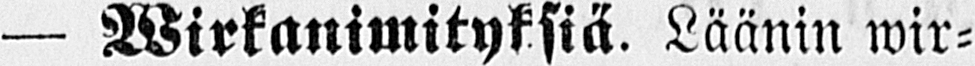— Wirkanimityksiä. Läänin wir-
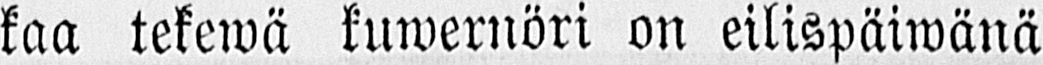kaa tekewä kuwernöri on eilispäiwänä
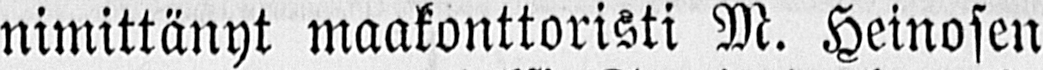nimittänyt maakonttoristi M. Heinosen
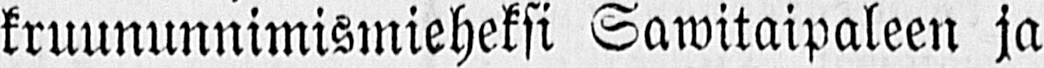kruununnimismieheksi Sawitaipaleen ja
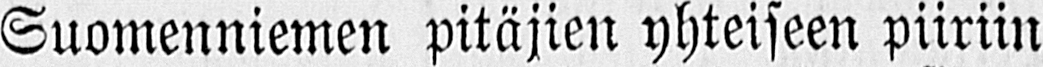Suomenniemen pitäjien yhteiseen piiriin
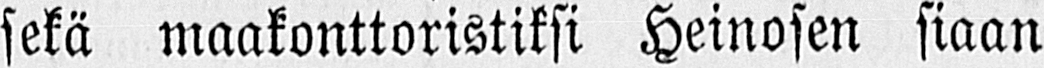sekä maakonttoristiksi Heinosen siaan
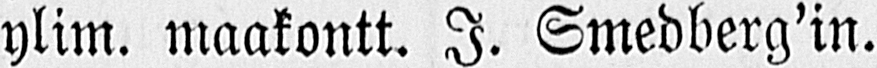ylim. maakontt. I. Smedberg'in.
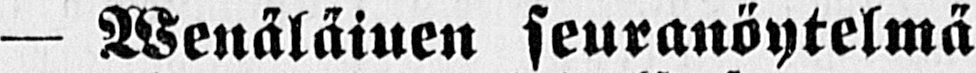— Wenäläiuen seuranöytelmä
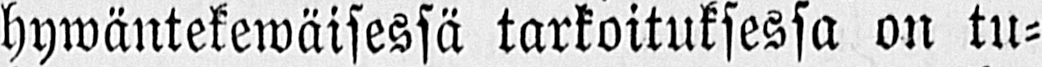hywäntekewäisessä tarkoituksessa on tu-
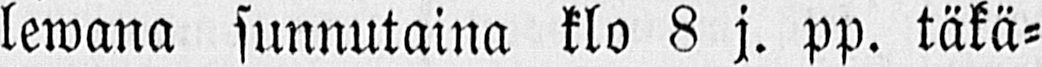lewana sunnutaina klo 8 j. pp. täkä-
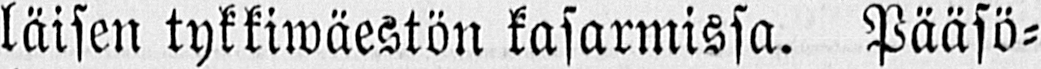läisen tykkiwäestön kasarmissa. Pääsö-
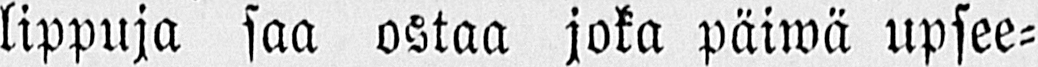lippuja saa ostaa joka päiwä upsee-
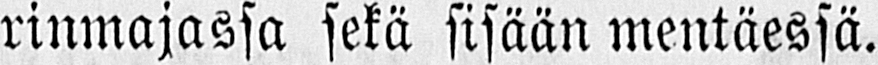rinmajassa sekä sisään mentäessä.
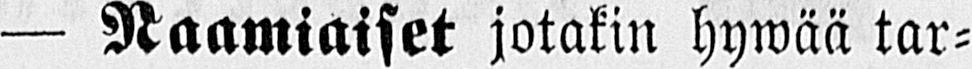— Naamiaiset jotakin hywää tar-
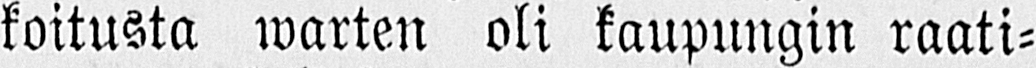koitusta warten oli kaupungin raati-
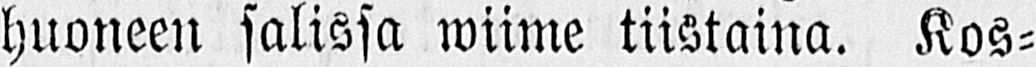huoneen salissa wiime tiistaina. Kos-
